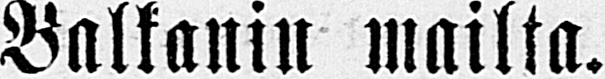Balkanin mailta.
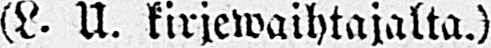(L. U. kirjewaihtajalta.)
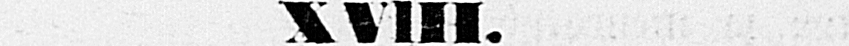XVIII.
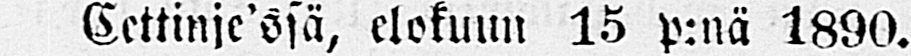Cettinje’ssä, elokuun 15 p:nä 1890.
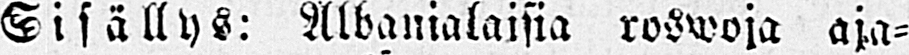Sisällys: Albanialaisia roswoja aja-
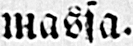massa.
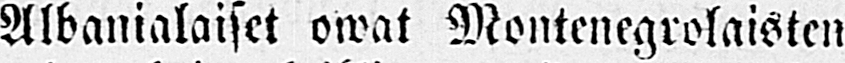Albanialaiset owat Montenegrolaisten
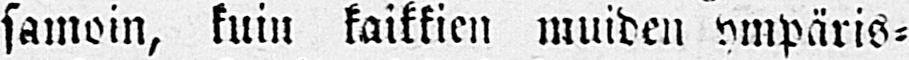samoin, kuin kaikkien muiden ympäris-
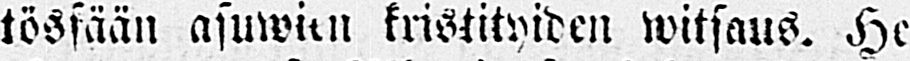tössään asuwien kristityiden witsaus. He
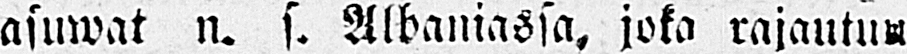asuwat n. s. Albaniassa, joka rajautuu
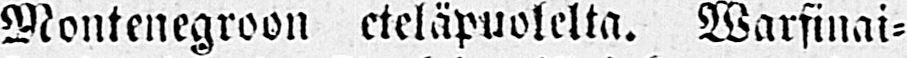Montenegroon eteläpuolelta. Warsinai-
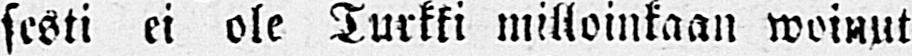sesti ei ole Turkki milloinkaan woinut
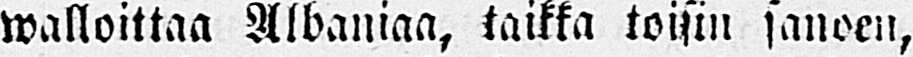walloittaa Albaniaa, taikka toisin sanoen,
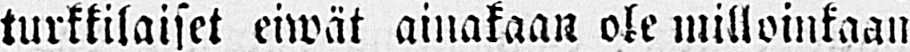turkkilaiset eiwät ainakaan ole milloinkaan
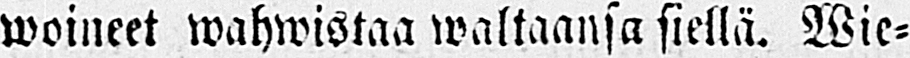woineet wahwistaa waltaansa siellä. Wie-
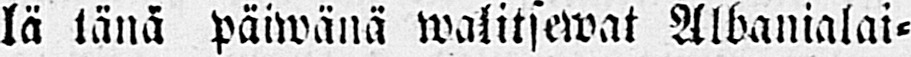lä tänä päiwänä walitsewat Albanialai-
